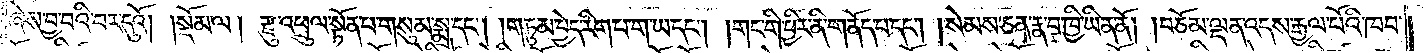ཞེས་བྱ་བའི་བར་དུའོ།    །སྡོམ་ལ། རྫུ་འཕྲུལ་སྟོན་པ་གསུམ་སྨྲ་དང༌། །གཏུམ་བྱེད་རིག་པ་ག་ཡ་དང༌། །གང་གི་ཕྱིར་ནི་གནོད་པ་དང༌། །སེམས་ཅན་རྣ་བ་ཁྱི་ཡིན་ནོ། །བཅོམ་ལྡན་འདས་རྒྱལ་པོའི་ཁབ་
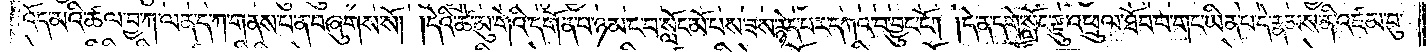འོད་མའི་ཚལ་བྱ་ཀ་ལན་ད་ཀ་གནས་པ་ན་བཞུགས་སོ། །དེའི་ཚེ་མུ་གེའི་དགོན་པ་ཉམ་ང་བ་སློང་མོ་པས་ཟས་རྙེད་པར་དཀའ་བ་བྱུང་ངོ༌། །དེ་ན་དགེ་སློང་རྫུ་འཕྲུལ་ཐོབ་པ་གང་ཡིན་པ་དེ་རྣམས་ནི་འཛམ་བུ་
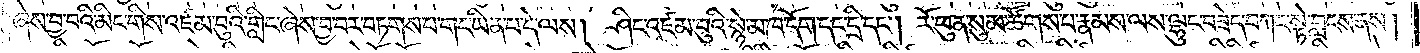ཞེས་བྱ་བའི་མིང་གིས་འཛམ་བུའི་གླིང་ཞེས་བྱ་བར་བཏགས་པ་གང་ཡིན་པ་དེ་ལས། ཤིང་འཛམ་བུའི་སྙེ་མ་ཁ་དོག་དང་དྲི་དང༌། རོ་ཕུན་སུམ་ཚོགས་པ་རྣམས་ལས་ལྷུང་བཟེད་བཀང་སྟེ་བླངས་ནས།
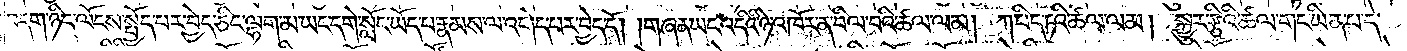བདག་ཉིད་ལོངས་སྤྱོད་པར་བྱེད་ཅིང་ལྷག་མ་ཡང་དགེ་སློང་ཡོད་པ་རྣམས་ལ་འགེད་པར་བྱེད་དོ། །གཞན་ཡང་འདིའི་ཉེ་འཁོར་ན་བིལ་བའི་ཚལ་ལམ། ཀ་པིད་ཏའི་ཚལ་ལམ། སྐྱུར་རྩིའི་ཚལ་གང་ཡིན་པ་དེ་
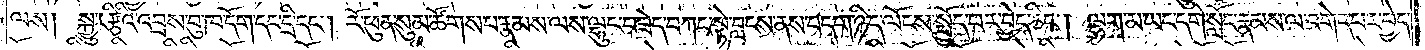ལས། སྐྱུར་རྩིའི་འབྲས་བུ་ཁ་དོག་དང་དྲི་དང༌། རོ་ཕུན་སུམ་ཚོགས་པ་རྣམས་ལས་ལྷུང་བཟེད་བཀང་སྟེ་བླངས་ནས་བདག་ཉིད་ལོངས་སྤྱོད་པར་བྱེད་ཅིང༌། ལྷག་མ་ཡང་དགེ་སློང་རྣམས་ལ་འགེད་པར་བྱེད་
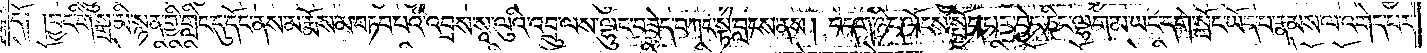དོ། །བྱང་གི་སྒྲ་མི་སྙན་གྱི་གླིང་དུ་དོང་ནས་མ་རྨོས་མ་བཏབ་པའི་འབྲས་སཱ་ལུའི་འབྲུ་ལས་ལྷུང་བཟེད་བཀང་སྟེ་བླངས་ནས། བདག་ཉིད་ལོངས་སྤྱོད་པར་བྱེད་ཅིང༌། ལྷག་མ་ཡང་དགེ་སློང་ཡོད་པ་རྣམས་ལ་འགེད་པར་
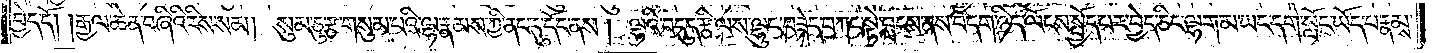བྱེད་དོ། །རྒྱལ་ཆེན་བཞིའི་རིས་སམ། སུམ་ཅུ་རྩ་གསུམ་པའི་ལྷ་རྣམས་ཀྱི་ནང་དུ་དོང་ནས། ལྷའི་བདུད་རྩི་ལས་ལྷུང་བཟེད་བཀང་སྟེ་བླངས་ནས་བདག་ཉིད་ལོངས་སྤྱོད་པར་བྱེད་ཅིང་ལྷག་མ་ཡང་དགེ་སློང་ཡོད་པ་རྣམས་
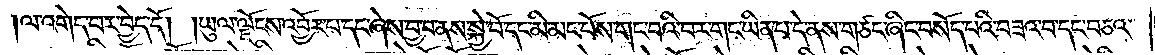ལ་འགེད་པར་བྱེད་དོ། །ཡུལ་ལྗོངས་འབྱོར་པ་དང་ཞེས་བྱ་བ་ནས་སྐྱེ་བོ་དང་མི་མང་པོས་གང་བའི་བར་གང་ཡིན་པ་དེ་ནས་གཙང་ཞིང་བསོད་པའི་བཟའ་བ་དང་བཅའ་
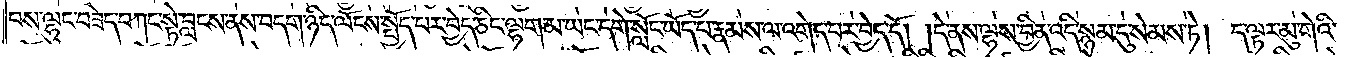བས་ལྷུང་བཟེད་བཀང་སྟེ་བླངས་ནས་བདག་ཉིད་ལོངས་སྤྱོད་པར་བྱེད་ཅིང་ལྷག་མ་ཡང་དགེ་སློང་ཡོད་པ་རྣམས་ལ་འགེད་པར་བྱེད་དོ། །དེ་ནས་ལྷས་བྱིན་འདི་སྙམ་དུ་སེམས་ཏེ། ད་ལྟར་མུ་གེའི་
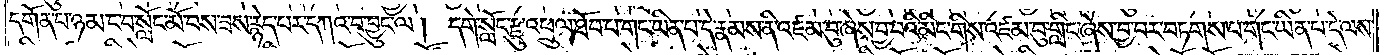དགོན་པ་ཉམ་ང་བ་སློང་མོ་བས་ཟས་རྙེད་པར་དཀའ་བ་བྱུང་ལ། དགེ་སློང་རྫུ་འཕྲུལ་ཐོབ་པ་གང་ཡིན་པ་དེ་རྣམས་ནི་འཛམ་བུ་ཞེས་བྱ་བའི་མིང་གིས་འཛམ་བུ་གླིང་ཞེས་བྱ་བར་བཏགས་པ་གང་ཡིན་པ་དེ་ལས་
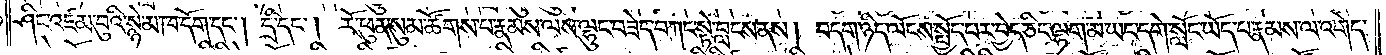ཤིང་འཛམ་བུའི་སྙེ་མ་ཁ་དོག་དང༌། དྲི་དང༌། རོ་ཕུན་སུམ་ཚོགས་པ་རྣམས་ལས་ལྷུང་བཟེད་བཀང་སྟེ་བླངས་ནས། བདག་ཉིད་ལོངས་སྤྱོད་པར་བྱེད་ཅིང་ལྷག་མ་ཡང་དགེ་སློང་ཡོད་པ་རྣམས་ལ་འགེད་
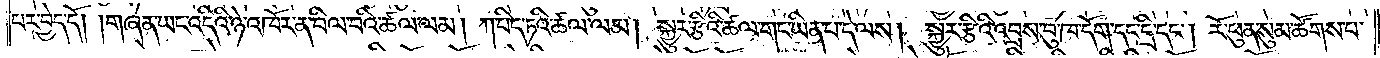པར་བྱེད་དོ། །གཞན་ཡང་འདིའི་ཉེ་འཁོར་ན་བིལ་བའི་ཚལ་ལམ། ཀ་པིད་ཏའི་ཚལ་ལམ། སྐྱུར་རྩིའི་ཚལ་གང་ཡིན་པ་དེ་ལས། སྐྱུར་རྩིའི་འབྲས་བུ་ཁ་དོག་དང་དྲི་དང༌། རོ་ཕུན་སུམ་ཚོགས་པ་
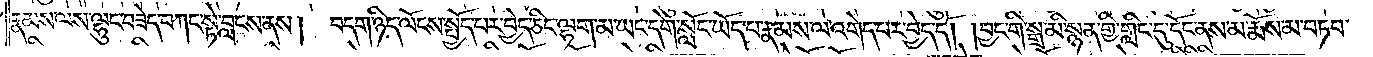རྣམས་ལས་ལྷུང་བཟེད་བཀང་སྟེ་བླངས་ནས། བདག་ཉིད་ལོངས་སྤྱོད་པར་བྱེད་ཅིང་ལྷག་མ་ཡང་དགེ་སློང་ཡོད་པ་རྣམས་ལ་འགེད་པར་བྱེད་དོ། །བྱང་གི་སྒྲ་མི་སྙན་གྱི་གླིང་དུ་དོང་ནས་མ་རྨོས་མ་བཏབ་
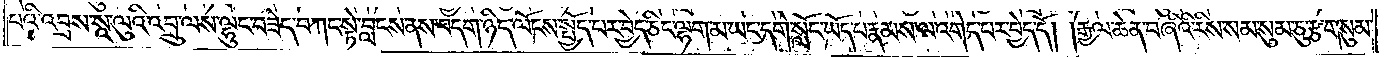པའི་འབྲས་སཱ་ལུའི་འབྲུ་ལས་ལྷུང་བཟེད་བཀང་སྟེ་བླངས་ནས་བདག་ཉིད་ལོངས་སྤྱོད་པར་བྱེད་ཅིང་ལྷག་མ་ཡང་དགེ་སློང་ཡོད་པ་རྣམས་ལ་འགེད་པར་བྱེད་དོ། །རྒྱལ་ཆེན་བཞིའི་རིས་སམ་སུམ་ཅུ་རྩ་གསུམ་
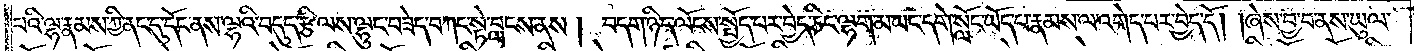པའི་ལྷ་རྣམས་ཀྱི་ནང་དུ་དོང་ནས་ལྷའི་བདུད་རྩི་ལས་ལྷུང་བཟེད་བཀང་སྟེ་བླངས་ནས། བདག་ཉིད་ལོངས་སྤྱོད་པར་བྱེད་ཅིང་ལྷག་མ་ཡང་དགེ་སློང་ཡོད་པ་རྣམས་ལ་འགེད་པར་བྱེད་དོ། །ཞེས་བྱ་བ་ནས་ཡུལ་
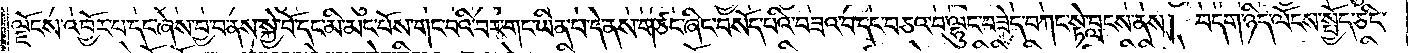ལྗོངས་འབྱོར་པ་དང་ཞེས་བྱ་བ་ནས་སྐྱེ་བོ་དང་མི་མང་པོས་གང་བའི་བར་གང་ཡིན་པ་དེ་ནས་གཙང་ཞིང་བསོད་པའི་བཟའ་བ་དང་བཅའ་བ་ལྷུང་བཟེད་བཀང་སྟེ་བླངས་ནས། བདག་ཉིད་ལོངས་སྤྱོད་ཅིང་
